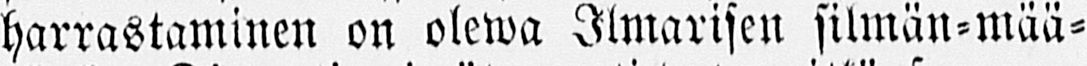harrastaminen on olewa Ilmarisen silmän-mää-
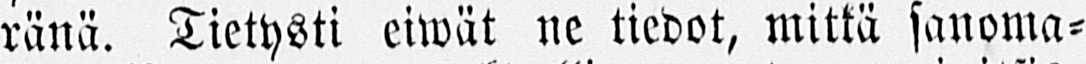ränä. Tietysti eiwät ne tiedot, mitkä sanoma-
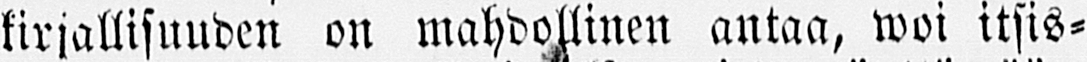kirjallisuuden on mahdollinen antaa, woi itsis-
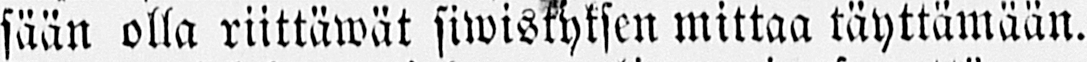sään olla riittäwät siwiskyksen mittaa täyttämään.
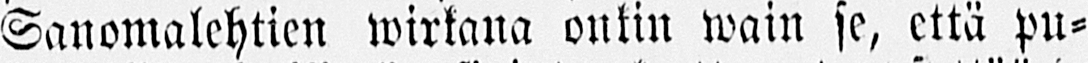Sanomalehtien wirkana onkin wain se, että pu-
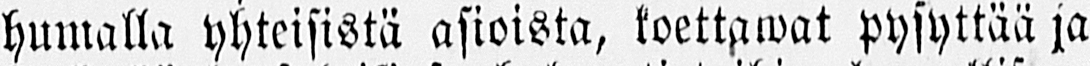humalla yhteisistä asioista, koettawat pysyttää ja
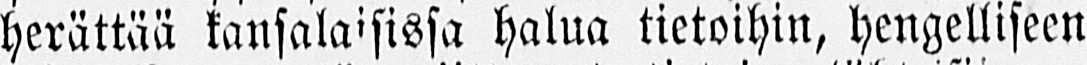herättää kansalaisissa halua tietoihin, hengelliseen
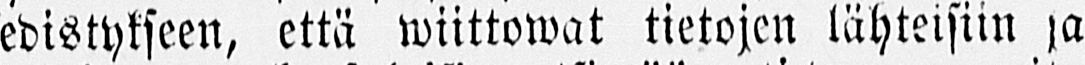edistykseen, että wiittowat tietojen lähteisiin ja
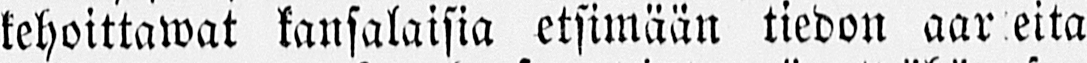kehoittawat kansalaisia etsimään tiedon aarteita
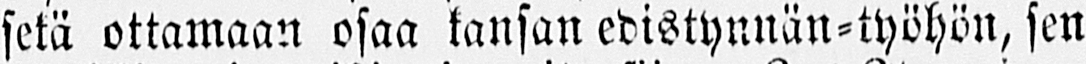sekä ottamaan osaa kansan edistynnän-työhön, sen
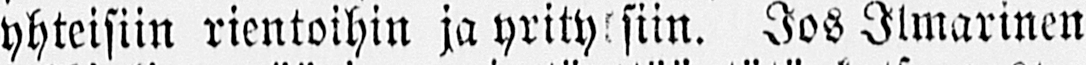yhteisiin rientoihin ja yrityksiin. Jos Ilmarinen
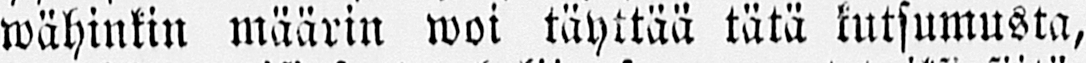wähinkin määrin woi täyttää tätä kutsumusta,
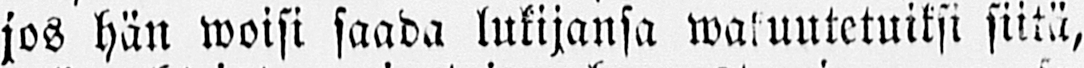jos hän woisi saada lukijansa wakuutetuiksi siitä,
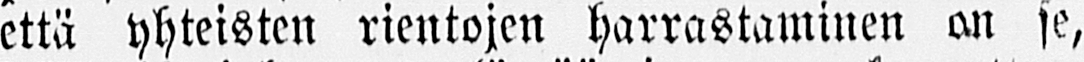että yhteisten rientojen harrastaminen on se,
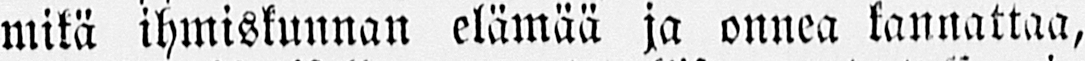mikä ihmiskunnan elämää ja onnea kannattaa,
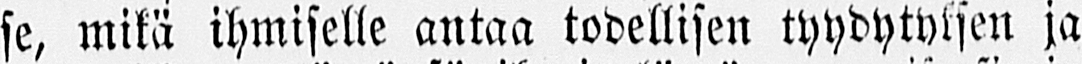se, mikä ihmiselle antaa todellisen tyydytyksen ja
